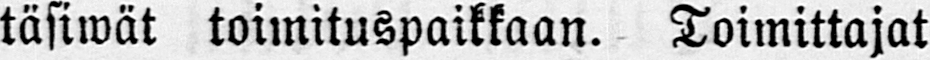täsiwät toinituspaikkaan. Toimittajat
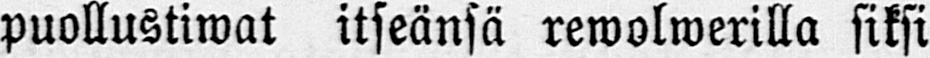puollustiwat itseänsä rewolwerilla siksi
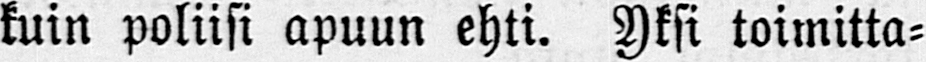kuin poliisi apuun ehti. Yksi toimitta-
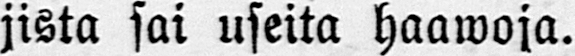jista sai useita haawoja.
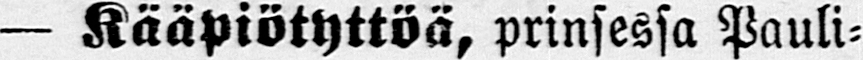— Kääpiötyttöä, prinsessa Pauli-
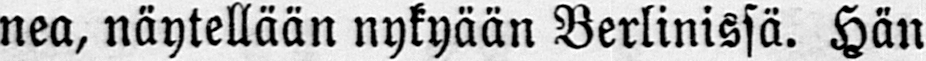nea, näytellään nykyään Berlinissä. Hän
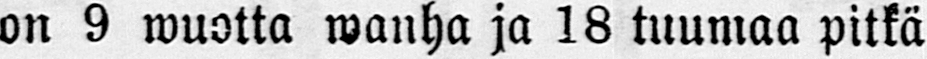on 9 wuotta wanha ja 18 tuumaa pitkä
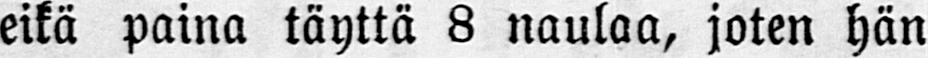eikä paina täyttä 8 naulaa, joten hän
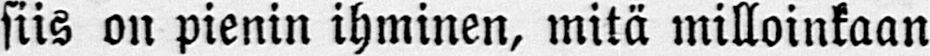siis on pienin ihminen, mitä milloinkaan
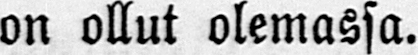on ollut olemassa.
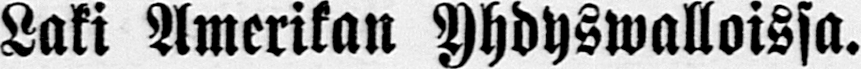Laki Amerikan Yhdyswalloissa.
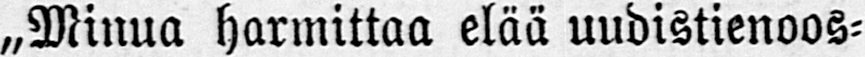„Minua harmittaa elää uudistienoos-
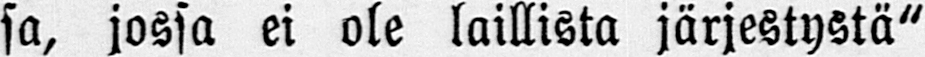sa, jossa ei ole laillista järjestystä"
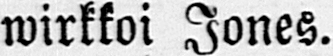wirkkoi Jones.
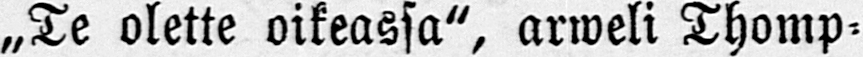„Te olette oikeassa", arweli Thomp-
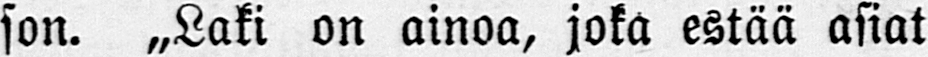son. „Laki on ainoa, joka estää asiat
